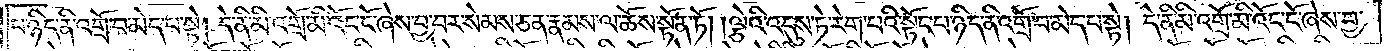པ་ཉིད་ནི་འགྲོ་བ་མེད་པ་སྟེ། དེ་ནི་མི་འགྲོ་མི་འོང་ངོ་ཞེས་བྱ་བར་སེམས་ཅན་རྣམས་ལ་ཆོས་སྟོན་ཏོ། །ལྕེའི་འདུས་ཏེ་རེག་པའི་སྟོང་པ་ཉིད་ནི་འགྲོ་བ་མེད་པ་སྟེ། དེ་ནི་མི་འགྲོ་མི་འོང་ངོ་ཞེས་བྱ་
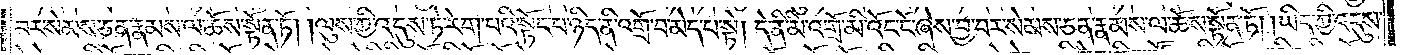བར་སེམས་ཅན་རྣམས་ལ་ཆོས་སྟོན་ཏོ། །ལུས་ཀྱི་འདུས་ཏེ་རེག་པའི་སྟོང་པ་ཉིད་ནི་འགྲོ་བ་མེད་པ་སྟེ། དེ་ནི་མི་འགྲོ་མི་འོང་ངོ་ཞེས་བྱ་བར་སེམས་ཅན་རྣམས་ལ་ཆོས་སྟོན་ཏོ། །ཡིད་ཀྱི་འདུས་
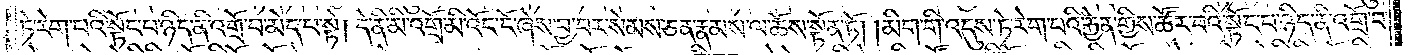ཏེ་རེག་པའི་སྟོང་པ་ཉིད་ནི་འགྲོ་བ་མེད་པ་སྟེ། དེ་ནི་མི་འགྲོ་མི་འོང་ངོ་ཞེས་བྱ་བར་སེམས་ཅན་རྣམས་ལ་ཆོས་སྟོན་ཏོ། །མིག་གི་འདུས་ཏེ་རེག་པའི་རྐྱེན་གྱིས་ཚོར་བའི་སྟོང་པ་ཉིད་ནི་འགྲོ་བ་
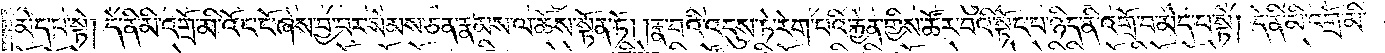མེད་པ་སྟེ། དེ་ནི་མི་འགྲོ་མི་འོང་ངོ་ཞེས་བྱ་བར་སེམས་ཅན་རྣམས་ལ་ཆོས་སྟོན་ཏོ། །རྣ་བའི་འདུས་ཏེ་རེག་པའི་རྐྱེན་གྱིས་ཚོར་བའི་སྟོང་པ་ཉིད་ནི་འགྲོ་བ་མེད་པ་སྟེ། དེ་ནི་མི་འགྲོ་མི་
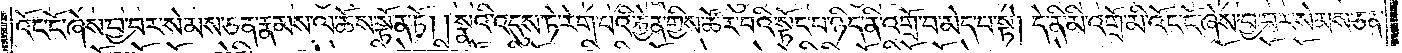འོང་ངོ་ཞེས་བྱ་བར་སེམས་ཅན་རྣམས་ལ་ཆོས་སྟོན་ཏོ། །སྣའི་འདུས་ཏེ་རེག་པའི་རྐྱེན་གྱིས་ཚོར་བའི་སྟོང་པ་ཉིད་ནི་འགྲོ་བ་མེད་པ་སྟེ། དེ་ནི་མི་འགྲོ་མི་འོང་ངོ་ཞེས་བྱ་བར་སེམས་ཅན་
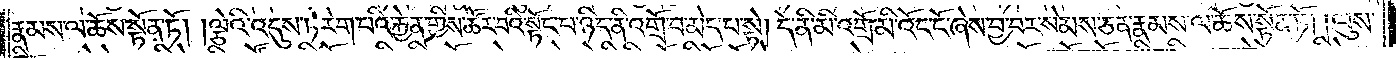རྣམས་ལ་ཆོས་སྟོན་ཏོ། །ལྕེའི་འདུས་ཏེ་རེག་པའི་རྐྱེན་གྱིས་ཚོར་བའི་སྟོང་པ་ཉིད་ནི་འགྲོ་བ་མེད་པ་སྟེ། དེ་ནི་མི་འགྲོ་མི་འོང་ངོ་ཞེས་བྱ་བར་སེམས་ཅན་རྣམས་ལ་ཆོས་སྟོན་ཏོ། །ལུས་
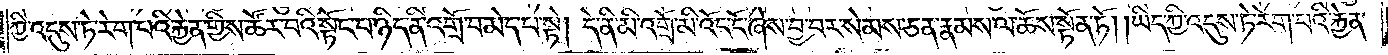ཀྱི་འདུས་ཏེ་རེག་པའི་རྐྱེན་གྱིས་ཚོར་བའི་སྟོང་པ་ཉིད་ནི་འགྲོ་བ་མེད་པ་སྟེ། དེ་ནི་མི་འགྲོ་མི་འོང་ངོ་ཞེས་བྱ་བར་སེམས་ཅན་རྣམས་ལ་ཆོས་སྟོན་ཏོ། ཡིད་ཀྱི་འདུས་ཏེ་རེག་པའི་རྐྱེན་
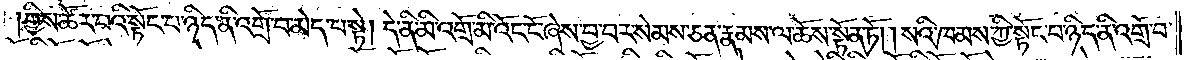གྱིས་ཚོར་བའི་སྟོང་པ་ཉིད་ནི་འགྲོ་བ་མེད་པ་སྟེ། དེ་ནི་མི་འགྲོ་མི་འོང་ངོ་ཞེས་བྱ་བར་སེམས་ཅན་རྣམས་ལ་ཆོས་སྟོན་ཏོ། །སའི་ཁམས་ཀྱི་སྟོང་པ་ཉིད་ནི་འགྲོ་བ་
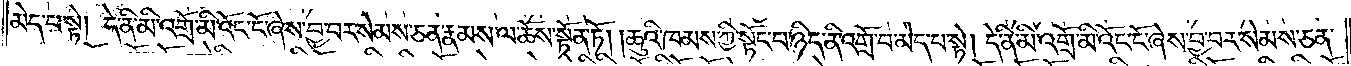མེད་པ་སྟེ། དེ་ནི་མི་འགྲོ་མི་འོང་ངོ་ཞེས་བྱ་བར་སེམས་ཅན་རྣམས་ལ་ཆོས་སྟོན་ཏོ། །ཆུའི་ཁམས་ཀྱི་སྟོང་པ་ཉིད་ནི་འགྲོ་བ་མེད་པ་སྟེ། དེ་ནི་མི་འགྲོ་མི་འོང་ངོ་ཞེས་བྱ་བར་སེམས་ཅན་
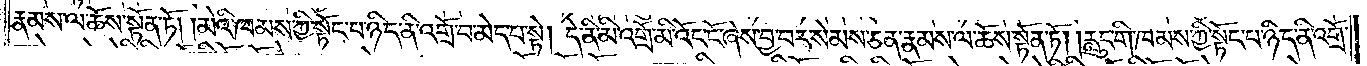རྣམས་ལ་ཆོས་སྟོན་ཏོ། །མེའི་ཁམས་ཀྱི་སྟོང་པ་ཉིད་ནི་འགྲོ་བ་མེད་པ་སྟེ། དེ་ནི་མི་འགྲོ་མི་འོང་ངོ་ཞེས་བྱ་བར་སེམས་ཅན་རྣམས་ལ་ཆོས་སྟོན་ཏོ། །རླུང་གི་ཁམས་ཀྱི་སྟོང་པ་ཉིད་ནི་འགྲོ་
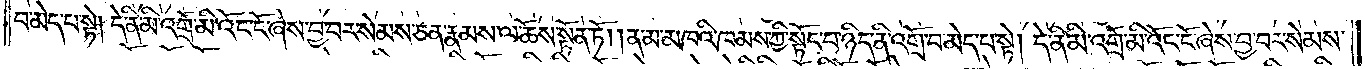བ་མེད་པ་སྟེ། དེ་ནི་མི་འགྲོ་མི་འོང་ངོ་ཞེས་བྱ་བར་སེམས་ཅན་རྣམས་ལ་ཆོས་སྟོན་ཏོ། །ནམ་མཁའི་ཁམས་ཀྱི་སྟོང་པ་ཉིད་ནི་འགྲོ་བ་མེད་པ་སྟེ། དེ་ནི་མི་འགྲོ་མི་འོང་ངོ་ཞེས་བྱ་བར་སེམས་
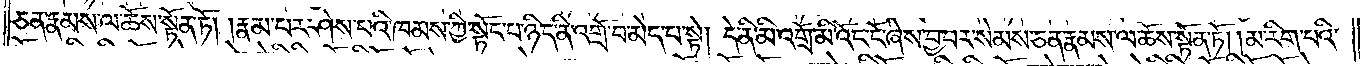ཅན་རྣམས་ལ་ཆོས་སྟོན་ཏོ། །རྣམ་པར་ཤེས་པའི་ཁམས་ཀྱི་སྟོང་པ་ཉིད་ནི་འགྲོ་བ་མེད་པ་སྟེ། དེ་ནི་མི་འགྲོ་མི་འོང་ངོ་ཞེས་བྱ་བར་སེམས་ཅན་རྣམས་ལ་ཆོས་སྟོན་ཏོ། །མ་རིག་པའི་
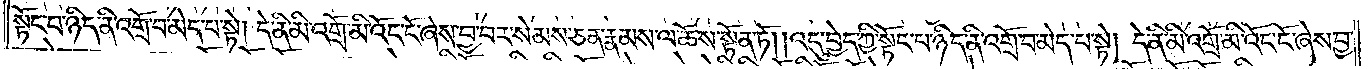སྟོང་པ་ཉིད་ནི་འགྲོ་བ་མེད་པ་སྟེ། དེ་ནི་མི་འགྲོ་མི་འོང་ངོ་ཞེས་བྱ་བར་སེམས་ཅན་རྣམས་ལ་ཆོས་སྟོན་ཏོ། །འདུ་བྱེད་ཀྱི་སྟོང་པ་ཉིད་ནི་འགྲོ་བ་མེད་པར་སྟེ། དེ་ནི་མི་འགྲོ་མི་འོང་ངོ་ཞེས་བྱ་
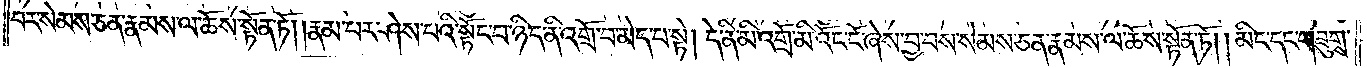བར་སེམས་ཅན་རྣམས་ལ་ཆོས་སྟོན་ཏོ། །རྣམ་པར་ཤེས་པའི་སྟོང་པ་ཉིད་ནི་འགྲོ་བ་མེད་པ་སྟེ། དེ་ནི་མི་འགྲོ་མི་འོང་ངོ་ཞེས་བྱ་བར་སེམས་ཅན་རྣམས་ལ་ཆོས་སྟོན་ཏོ། །མིང་དང་གཟུགས་
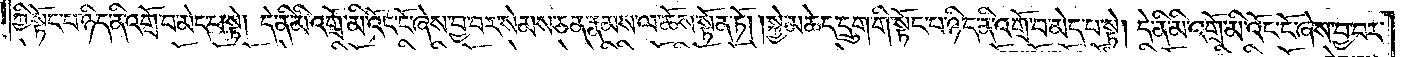ཀྱི་སྟོང་པ་ཉིད་ནི་འགྲོ་བ་མེད་པ་སྟེ། དེ་ནི་མི་འགྲོ་མི་འོང་ངོ་ཞེས་བྱ་བར་སེམས་ཅན་རྣམས་ལ་ཆོས་སྟོན་ཏོ། །སྐྱེ་མཆེད་དྲུག་གི་སྟོང་པ་ཉིད་ནི་འགྲོ་བ་མེད་པ་སྟེ། དེ་ནི་མི་འགྲོ་མི་འོང་ངོ་ཞེས་བྱ་བར་
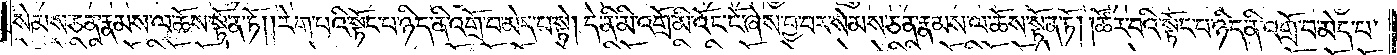སེམས་ཅན་རྣམས་ལ་ཆོས་སྟོན་ཏོ། །རེག་པའི་སྟོང་པ་ཉིད་ནི་འགྲོ་བ་མེད་པ་སྟེ། དེ་ནི་མི་འགྲོ་མི་འོང་ངོ་ཞེས་བྱ་བར་སེམས་ཅན་རྣམས་ལ་ཆོས་སྟོན་ཏོ། །ཚོར་བའི་སྟོང་པ་ཉིད་ནི་འགྲོ་བ་མེད་པ་
